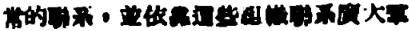常的聯系，並依靠這些組織聯系廣大羣
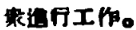衆進行工作。
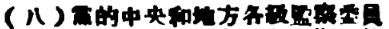（八）黨的中央和地方各級監察委員
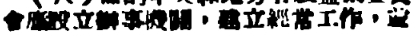會應設立辦事機關，建立經常工作，並
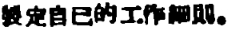製定自己的工作細則。
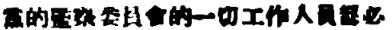黨的監察委員會的一切工作人員都必
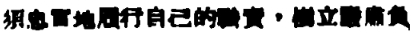須忠實地履行自己的職責，樹立嚴肅負
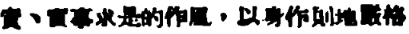責、實事求是的作風，以身作則地嚴格
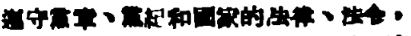遵守黨章、黨紀和國家的法律、法令，
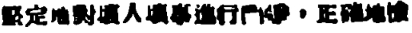堅定地對壞人壞事進行鬥爭，正確地檢
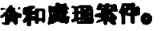查和處理案件。
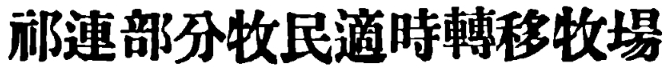祁連部分牧民適時轉移牧場
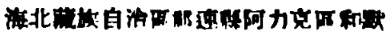海北藏族自治區祁連縣阿力克區和默
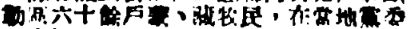勒區六十餘戶蒙、藏牧民，在當地黨委
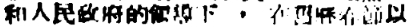和人民政府的領導下 ，在舊曆春節以
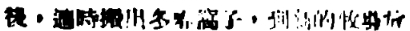後，適時搬出冬春窩子，到新的牧場放
